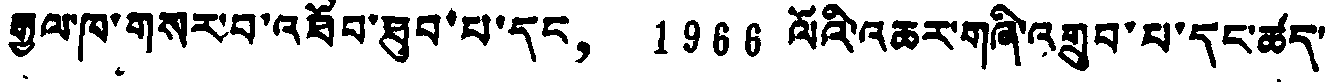རྒྱལ་ཁ་གསར་བ་འཐོབ་ཐུབ་པ་དང， 1966 ལོའི་འཆར་གཞི་འགྲུབ་པ་དང་ཚད་
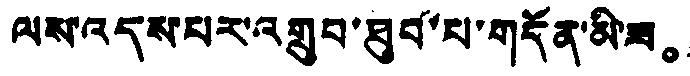ལས་འདས་པར་འགྲུབ་ཐུབ་པ་གདོན་མི་ཟ。
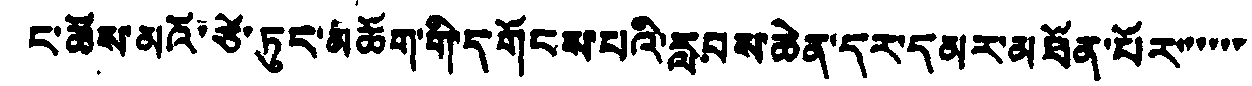ང་ཚོས་མའོ་ཙེ་ཏུང་མཆོག་གི་དགོངས་པའི་རླབས་ཆེན་དར་དམར་མཐོན་པོར་་་་་་
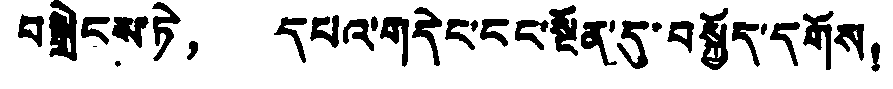བསྒྲེངས་ཏེ， དཔའ་གདེང་ངང་སྔོན་དུ་བསྐྱོད་དགོས！
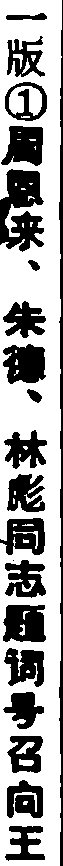一版①周恩来、朱德、林彪同志題词号召向王
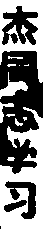杰同志学习
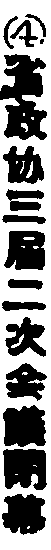④省政协三届二次会議閉幕
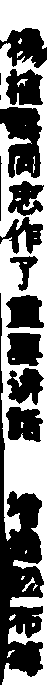楊植霖同志作了重要讲话 增选松布等
